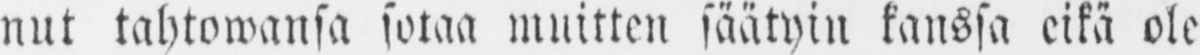nut tahtowansa sotaa muitten säätyin kanssa eikä ole-
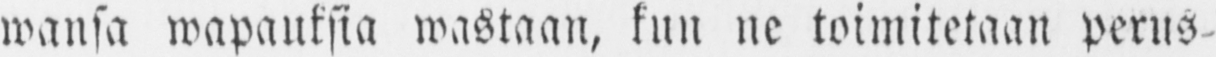wansa wapauksia wastaan, kun ne toimitetaan perus-
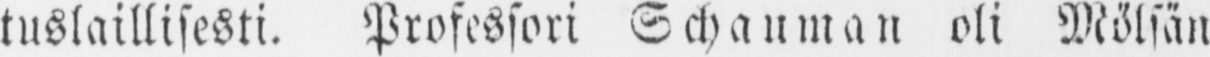tuslaillisesti. Professori Schauman oli Mölsän
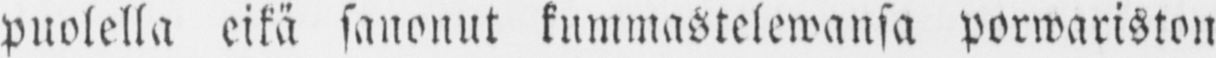puolella eikä sanonut kummastelewansa porwariston
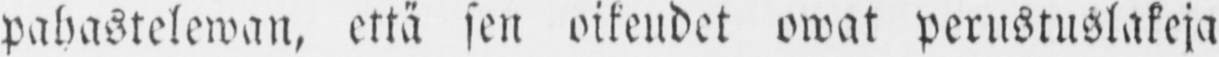pahastelewan, että sen oikeudet owat perustuslakeja
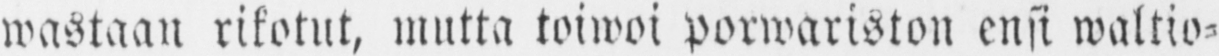wastaan rikotut, mutta toiwoi porwariston ensi waltio-
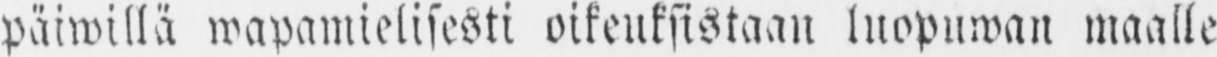päiwillä wapamielisesti oikeuksistaan luopuwan maalle
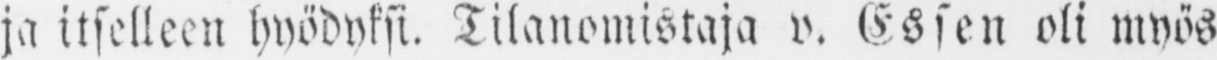ja itselleen hyödyksi. Tilanomistaja v. Essen oli myös
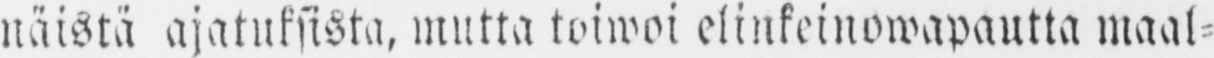näistä ajatuksista, mutta toiwoi elinkeinowapautta maal-
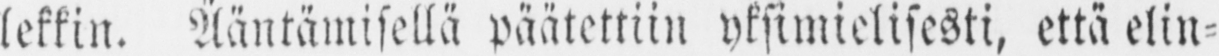lekkin. Ääntämisellä päätettiin yksimielisesti, että elin-
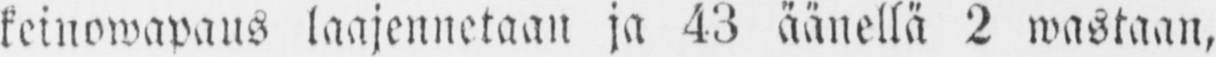keinowapaus laajennetaan ja 43 äänellä 2 wastaan,
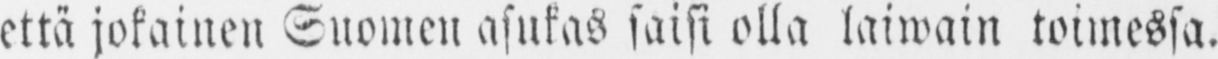että jokainen Suomen asukas saisi olla laiwain toimessa.
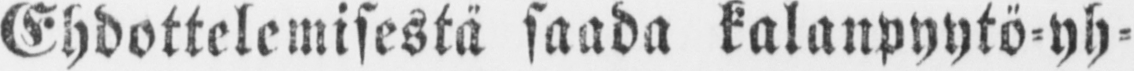Ehdottelemisestä saada kalanpyytö-yh-
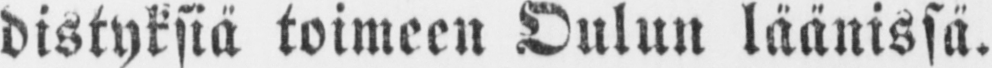distyksiä toimeen Oulun läänissä.
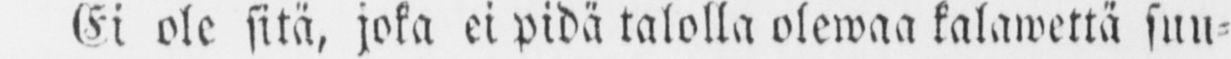Ei ole sitä, joka ei pidä talolla olewaa kalawettä suu-
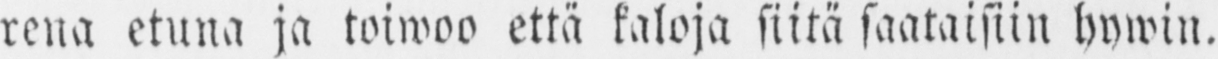rena etuna ja toiwoo että kaloja siitä saataisiin hywin.
